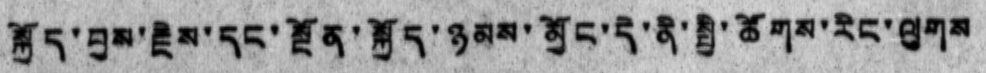སྐྱོད་བྱས་རྗེས་དང་སྔོན་སྐྱོད་ཉམས་མྱོང་དེ་ནི་སྤྱི་ཚོགས་རིང་ལུགས
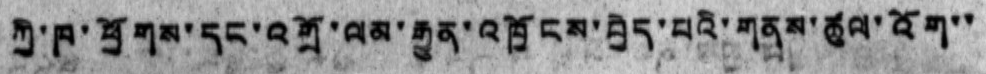ཀྱི་ཁ་ཕྱོགས་དང་འགྲོ་ལམ་རྒྱུན་འཁྱོངས་བྱེད་པའི་གནས་ཚུལ་འོག་་
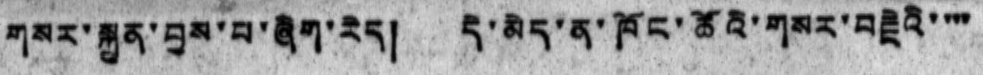གསར་སྐྲུན་བྱས་པ་ཞིག་རེད། དེ་མེད་ན་ཁོང་ཚོའི་གསར་བརྗེའི་་་་
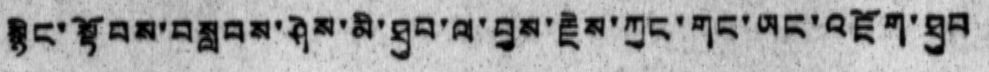སྙིང་སྟོབས་བསླབས་ཤེས་མི་ཐུབ་ལ་བྱས་རྗེས་ཀྱང་གང་ཡང་འཇོག་ཐུབ
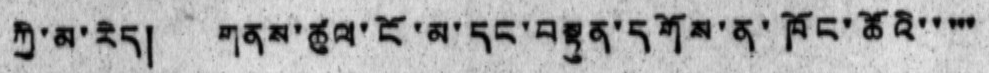ཀྱི་མ་རེད། གནས་ཚུལ་ངོ་མ་དང་བསྟུན་དགོས་ན་ཁོང་ཚོའི་་་་་
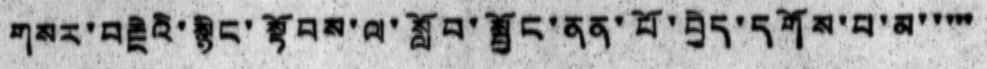གསར་བརྗེའི་སྙིང་སྟོབས་ལ་སློབ་སྦྱོང་ནན་པོ་བྱེད་དགོས་པ་མ་་་་་
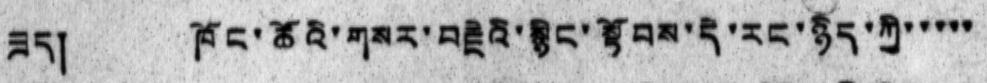ཟད། ཁོང་ཚོའི་གསར་བརྗེའི་སྙིང་སྟོབས་དེ་རང་ཉིད་ཀྱི་་་་་
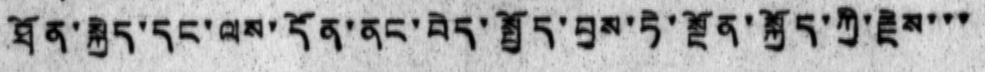ཐོན་སྐྱེད་དང་ལས་དོན་ནང་བེད་སྤྱོད་བྱས་ཏེ་སྔོན་སྐྱོད་ཀྱི་རྗེས་་་
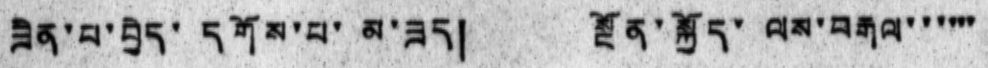ཟིན་པ་བྱེད་ དགོས་པ་མ་ཟད། སྔོན་སྐྱོད་ ལས་བརྒལ་་་་་་
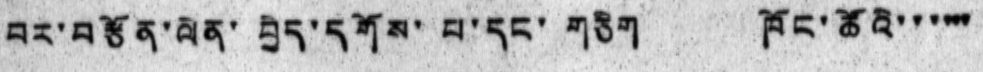བར་བརྩོན་ལེན་ བྱེད་དགོས་ པ་དང་ གཅིག ཁོང་ཚོའི་་་་་་
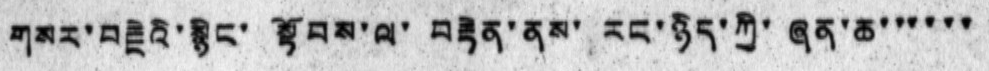གསར་བརྗེའི་སྙིང་ སྟོབས་ལ་ བརྟེན་ནས་ རང་ཉིད་ཀྱི་ ཞན་ཆ་་་་་་
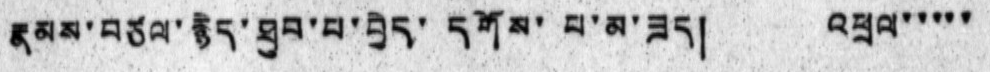རྣམས་བཙལ་རྙེད་ཐུབ་པ་བྱེད་ དགོས་ པ་མ་ཟད། འཕྲལ་་་་་
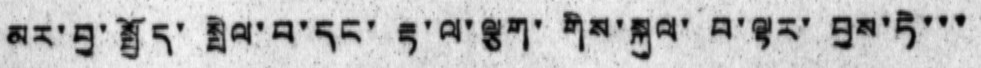མར་བྱ་སྤྱོད་ སྤེལ་བ་དང་ རྟ་ལ་ལྕག་ གིས་སྐུལ་ བ་ལྟར་ བྱས་ཏེ་་་
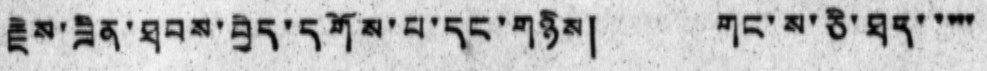རྗེས་ཟིན་ཐབས་བྱེད་དགོས་པ་དང་གཉིས། གང་ས་ཅི་ཐད་ ་་་་
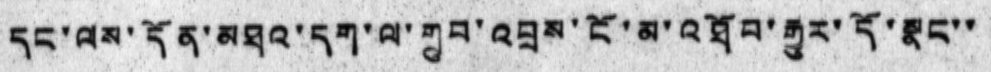དང་ལས་དོན་མཐའ་དག་ལ་གྲུབ་འབྲས་ངོ་མ་འཐོབ་རྒྱུར་དོ་སྣང་་
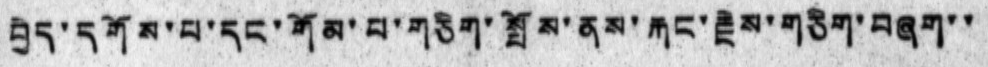བྱེད་དགོས་པ་དང་གོམ་པ་གཅིག་སྤོས་ནས་རྐང་རྗེས་གཅིག་བཞག་་
